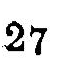27
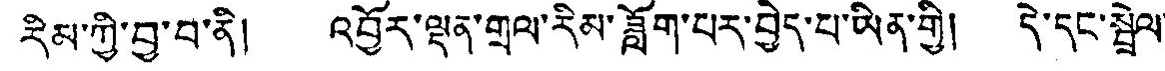རིམ་ཀྱི་བྱ་བ་ནི། འབྱོར་ལྡན་གྲལ་རིམ་ཟློག་པར་བྱེད་པ་ཡིན་གྱི། དེ་དང་སྦྲེལ་
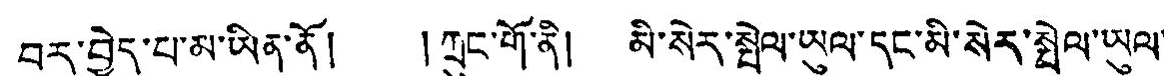བར་བྱེད་པ་མ་ཡིན་ནོ། །ཀྲུང་གོ་ནི། མི་སེར་སྤེལ་ཡུལ་དང་མི་སེར་སྤེལ་ཡུལ་་
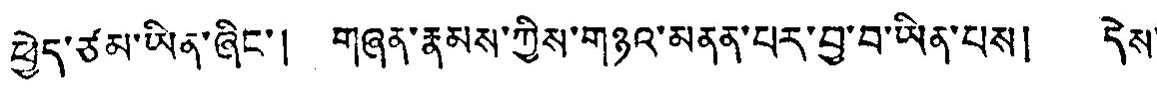ཕྱེད་ཙམ་ཡིན་ཞིང་། གཞན་རྣམས་ཀྱིས་གཉའ་མནན་པར་བྱ་བ་ཡིན་པས། དེས་
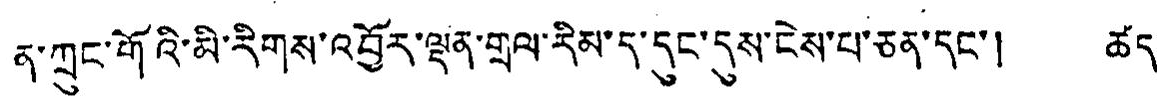ན་ཀྲུང་གོའི་མི་རིགས་འབྱོར་ལྡན་གྲལ་རིམ་ད་དུང་དུས་ངེས་པ་ཅན་དང་། ཚད་
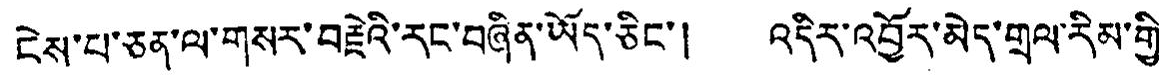ངེས་པ་ཅན་ལ་གསར་བརྗེའི་རང་བཞིན་ཡོད་ཅིང་། འདིར་འབྱོར་མེད་གྲལ་རིམ་གྱི་
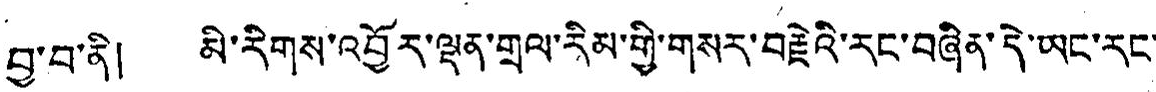བྱ་བ་ནི། མི་རིགས་འབྱོར་ལྡན་གྲལ་རིམ་གྱི་གསར་བརྗེའི་རང་བཞིན་དེ་ཡང་རང་
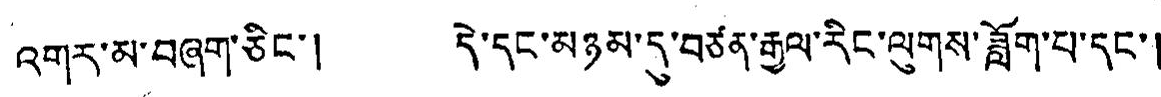འགྱུར་མ་བཞག་ཅིང་། དེ་དང་མཉམ་དུ་བཙན་རྒྱལ་རིང་ལུགས་ཟློག་པ་དང་།
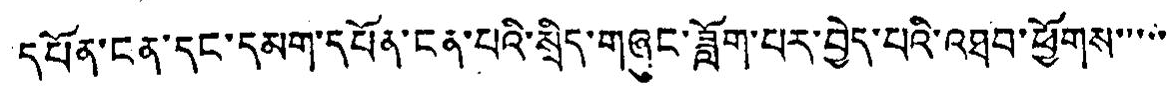དཔོན་ངན་དང་དམག་དཔོན་ངན་པའི་སྲིད་གཞུང་ཟློག་པར་བྱེད་པའི་འཐབ་ཕྱོགས་་་་་
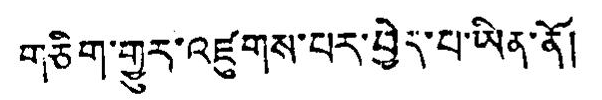གཅིག་གྱུར་འཛུགས་པར་བྱེད་པ་ཡིན་ནོ།
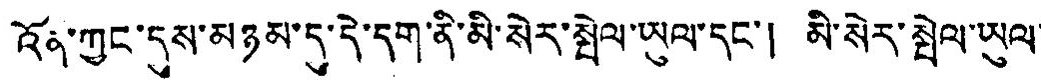འོན་ཀྱང་དུས་མཉམ་དུ་དེ་དག་ནི་མི་སེར་སྤེལ་ཡུལ་དང་། མི་སེར་སྤེལ་ཡུལ་
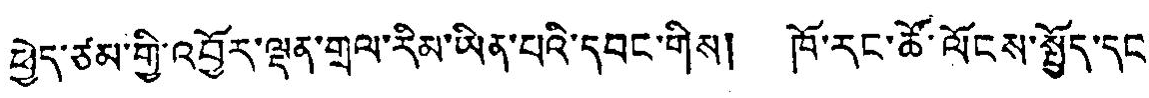ཕྱེད་ཙམ་གྱི་འབྱོར་ལྡན་གྲལ་རིམ་ཡིན་པའི་དབང་གིས། ཁོ་རང་ཚོ་ལོངས་སྤྱོད་དང་
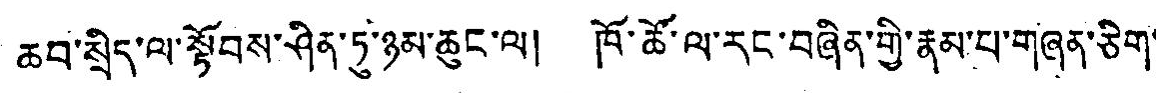ཆབ་སྲིད་ལ་སྟོབས་ཤིན་ཏུ་ཉམ་ཆུང་ལ། ཁོ་ཚོ་ལ་རང་བཞིན་གྱི་རྣམ་པ་གཞན་ཅིག་
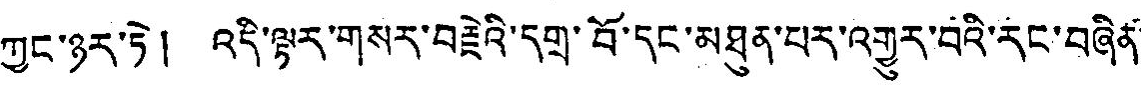ཀྱང་ཉར་ཏེ། འདི་ལྟར་གསར་བརྗེའི་དགྲ་བོ་དང་མཐུན་པར་འགྱུར་བའི་རང་བཞིན་
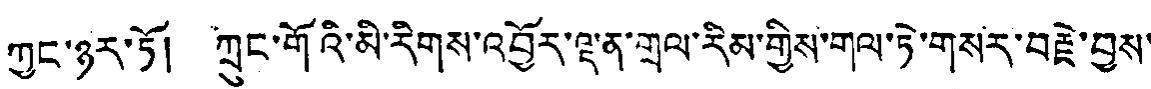ཀྱང་ཉར་ཏོ། ཀྲུང་གོའི་མི་རིགས་འབྱོར་ལྡན་གྲལ་རིམ་གྱིས་གལ་ཏེ་གསར་བརྗེ་བྱས་
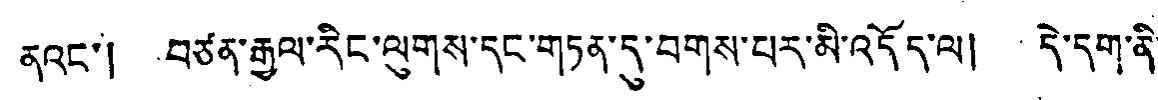ནའང་། བཙན་རྒྱལ་རིང་ལུགས་དང་གཏན་དུ་བགས་པར་མི་འདོད་ལ། དེ་དག་ནི་
